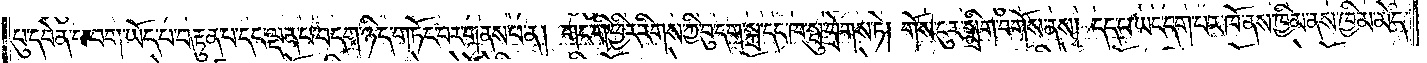པུ་དབེན་པ་བག་ཡོད་པ་བརྟུན་པ་དང་ལྡན་པ་བདག་ཉིད་གཏོང་བར་གནས་པ་ན། གང་གི་ཕྱིར་རིགས་ཀྱི་བུ་དག་སྐྲ་དང་ཁ་སྤུ་བྲེགས་ཏེ། གོས་ངུར་སྨྲིག་བགོས་ནས། དད་པ་ཡང་དག་པར་ཁོ་ནས་ཁྱིམ་ནས་ཁྱིམ་མེད་
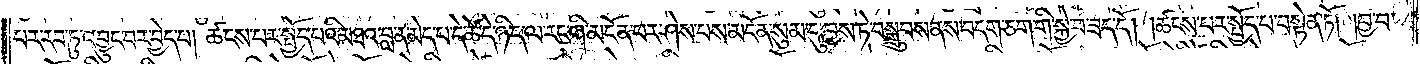པར་རབ་ཏུ་འབྱུང་བར་བྱེད་པ། ཚངས་པར་སྤྱོད་པའི་མཐའ་བླ་ན་མེད་པ་དེ་ཚེ་དེ་ཉིད་ལ་རང་གི་མངོན་པར་ཤེས་པས་མངོན་སུམ་དུ་བྱས་ཏེ་བསྒྲུབས་ནས་བདག་ཅག་གི་སྐྱེ་བ་ཟད་དོ། །ཚངས་པར་སྤྱོད་པ་བསྟེན་ཏོ། །བྱ་བ་
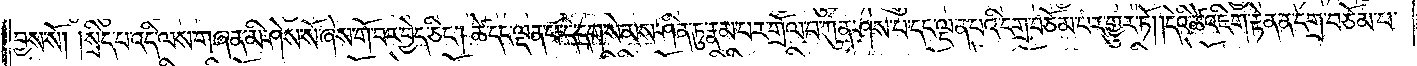བྱས་སོ། །སྲིད་པ་འདི་ལས་གཞན་མི་ཤེས་སོ་ཞེས་གོ་བར་བྱེད་ཅིང༌། ཚེ་དང་ལྡན་པ་དེ་དག་སེམས་ཤིན་ཏུ་རྣམ་པར་གྲོལ་བ་ཀུན་ཤེས་པ་དང་ལྡན་པའི་དགྲ་བཅོམ་པར་གྱུར་ཏོ། །དེའི་ཚེ་འཇིག་རྟེན་ན་དགྲ་བཅོམ་པ་
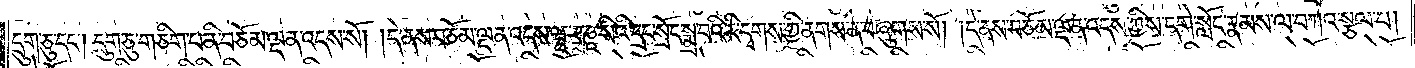དྲུག་ཅུ་དང༌། དྲུག་ཅུ་གཅིག་པ་ནི་བཅོམ་ལྡན་འདས་སོ། །དེ་ནས་བཅོམ་ལྡན་འདས་ཝཱ་ར་ཎཱ་སིའི་དྲང་སྲོང་སྨྲ་བའི་རི་དྭགས་ཀྱི་ནགས་ན་བཞུགས་སོ། །དེ་ནས་བཅོམ་ལྡན་འདས་ཀྱིས་དགེ་སློང་རྣམས་ལ་བཀའ་སྩལ་པ།
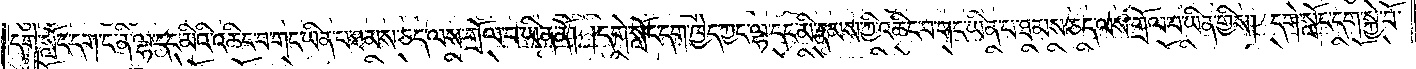དགེ་སློང་དག་ང་ནི་ལྷ་དང་མིའི་འཆིང་བ་གང་ཡིན་པ་ཐམས་ཅད་ལས་གྲོལ་བ་ཡིན་ནོ། །དགེ་སློང་དག་ཁྱེད་ཀྱང་ལྷ་དང་མི་རྣམས་ཀྱི་འཆིང་བ་གང་ཡིན་པ་ཐམས་ཅད་ལས་གྲོལ་བ་ཡིན་གྱིས། དགེ་སློང་དག་སྐྱེ་བོ་
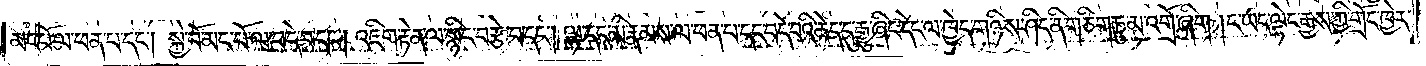མང་པོ་ལ་ཕན་པ་དང༌། སྐྱེ་བོ་མང་པོ་ལ་བདེ་བ་དང༌། འཇིག་རྟེན་ལ་སྙིང་བརྩེ་བ་དང༌། ལྷ་དང་མི་རྣམས་ལ་ཕན་པ་དང་བདེ་བའི་ཆེད་དུ་རྒྱུ་ཞིང་དེང་ལ་ཁྱེད་གཉིས་ཤིང་ནི་གཅིག་ཏུ་མ་འགྲོ་ཞིག །ང་ཡང་ལྟེང་རྒྱས་ཀྱི་གྲོང་ཁྱེར་
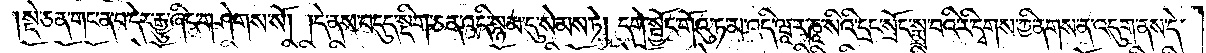སྡེ་ཅན་གང་ན་བ་དེར་རྒྱུ་ཞིང་གཤེགས་སོ། །དེ་ནས་བདུད་སྡིག་ཅན་འདི་སྙམ་དུ་སེམས་ཏེ། དགེ་སྦྱོང་གོའུ་ཏ་མ་འདི་ཝཱ་ར་ཎཱ་སིའི་དྲང་སྲོང་སྨྲ་བའི་རི་དྭགས་ཀྱི་ནགས་ན་འདུག་ནས་དེ་
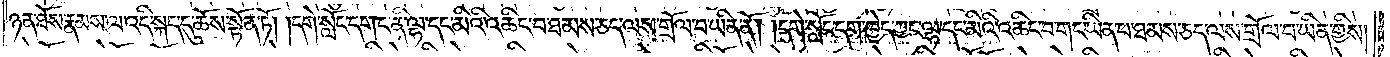ཉན་ཐོས་རྣམས་ལ་འདི་སྐད་དུ་ཆོས་སྟོན་ཏོ། །དགེ་སློང་དག་ང་ནི་ལྷ་དང་མིའི་འཆིང་བ་ཐམས་ཅད་ལས་གྲོལ་བ་ཡིན་ནོ། །དགེ་སློང་དག་ཁྱེད་ཀྱང་ལྷ་དང་མིའི་འཆིང་བ་གང་ཡིན་པ་ཐམས་ཅད་ལས་གྲོལ་བ་ཡིན་གྱིས།
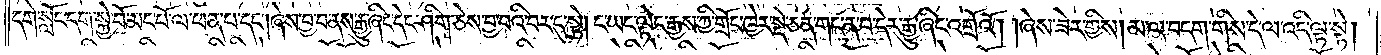དགེ་སློང་དག་སྐྱེ་བོ་མང་པོ་ལ་ཕན་པ་དང༌། ཞེས་བྱ་བ་ནས་རྒྱུ་ཞིང་དེང་ཤིག་ཅེས་བྱ་བའི་བར་དུ་སྟེ། ང་ཡང་ལྟེང་རྒྱས་ཀྱི་གྲོང་ཁྱེར་སྡེ་ཅན་གང་ན་བ་དེར་རྒྱུ་ཞིང་འགྲོའོ། །ཞེས་ཟེར་གྱིས། མ་ལ་བདག་གིས་དེ་ལ་འདི་ལྟ་སྟེ།
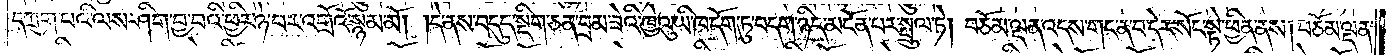དཀྲུག་པའི་ལས་ཤིག་བྱ་བའི་ཕྱིར་ཉེ་བར་འགྲོའོ་སྙམ་མོ། །དེ་ནས་བདུད་སྡིག་ཅན་བྲམ་ཟེའི་ཁྱེའུ་ཡི་ཁ་དོག་ཏུ་བདག་ཉིད་མངོན་པར་སྤྲུལ་ཏེ། བཅོམ་ལྡན་འདས་གང་ན་བ་དེར་སོང་སྟེ་ཕྱིན་ནས། བཅོམ་ལྡན་
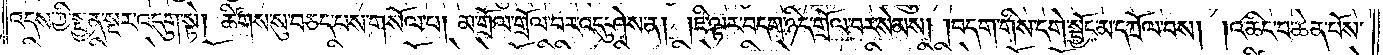འདས་ཀྱི་སྤྱན་སྔར་འདུག་སྟེ། ཚིགས་སུ་བཅད་པས་གསོལ་པ། མ་གྲོལ་གྲོལ་བར་འདུ་ཤེས་ན། །ཇི་ལྟར་བདག་ཉིད་གྲོལ་བར་སེམས། །བདག་གིས་དགེ་སྦྱོང་མ་བཀྲོལ་བས། །འཆིང་བ་ཆེན་པོས་
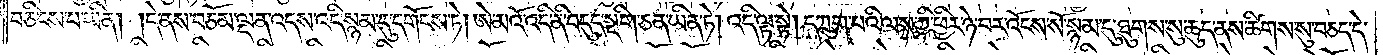བཅིངས་པ་ཡིན། །དེ་ནས་བཅོམ་ལྡན་འདས་འདི་སྙམ་དུ་དགོངས་ཏེ། ཨེ་མའོ་འདི་ནི་བདུད་སྡིག་ཅན་ཡིན་ཏེ། འདི་ལྟ་སྟེ། དཀྲུག་པའི་ལས་ཀྱི་ཕྱིར་ཉེ་བར་འོངས་སོ་སྙམ་དུ་ཐུགས་སུ་ཆུད་ནས་ཚིགས་སུ་བཅད་དེ་
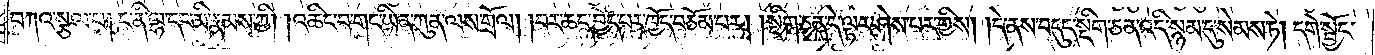བཀའ་སྩལ་པ། ང་ནི་ལྷ་དང་མི་རྣམས་ཀྱི། །འཆིང་བ་གང་ཡིན་ཀུན་ལས་གྲོལ། །བར་ཆད་བྱེད་པར་ཁྱོད་བཅོམ་པར། །སྡིག་ཅན་དེ་ལྟར་ཤེས་པར་གྱིས། །དེ་ནས་བདུད་སྡིག་ཅན་འདི་སྙམ་དུ་སེམས་ཏེ། དགེ་སྦྱོང་
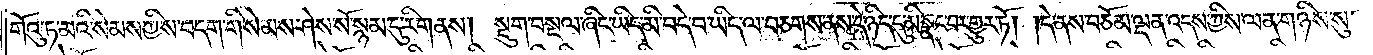གོའུ་ཏ་མའི་སེམས་ཀྱིས་བདག་གི་སེམས་ཤེས་སོ་སྙམ་དུ་རིག་ནས། སྡུག་བསྔལ་ཞིང་ཡིད་མི་བདེ་བ་ཡིད་ལ་བཅགས་ནས་དེ་ཉིད་དུ་མི་སྣང་བར་གྱུར་ཏོ། །དེ་ནས་བཅོམ་ལྡན་འདས་ཀྱིས་ལན་གཉིས་སུ་
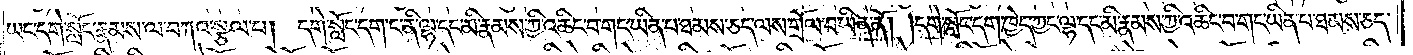ཡང་དགེ་སློང་རྣམས་ལ་བཀའ་སྩལ་པ། དགེ་སློང་དག་ང་ནི་ལྷ་དང་མི་རྣམས་ཀྱི་འཆིང་བ་གང་ཡིན་པ་ཐམས་ཅད་ལས་གྲོལ་བ་ཡིན་ནོ། །དགེ་སློང་དག་ཁྱེད་ཀྱང་ལྷ་དང་མི་རྣམས་ཀྱི་འཆིང་བ་གང་ཡིན་པ་ཐམས་ཅད་
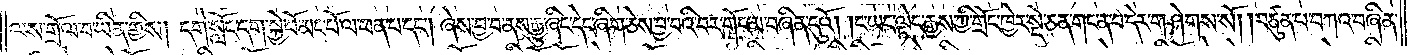ལས་གྲོལ་བ་ཡིན་གྱིས། དགེ་སློང་དག་སྐྱེ་བོ་མང་པོ་ལ་ཕན་པ་དང༌། ཞེས་བྱ་བ་ནས་རྒྱུ་ཞིང་དེང་ཞིག་ཅེས་བྱ་བའི་བར་གོང་མ་བཞིན་དུའོ། །ང་ཡང་ལྟེང་རྒྱས་ཀྱི་གྲོང་ཁྱེར་སྡེ་ཅན་གང་ན་བ་དེར་གཤེགས་སོ། །བཙུན་པ་བཀའ་བཞིན་
